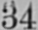34
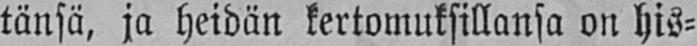tänsä, ja heidän kertomuksillansa on his-
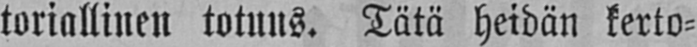toriallinen totuus. Tätä heidän kerto-
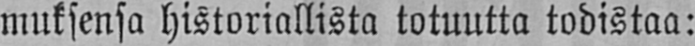muksensa historiallista totuutta todistaa:
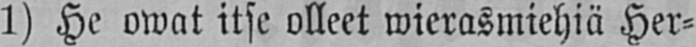1) He owat itse olleet wierasmiehiä Her-
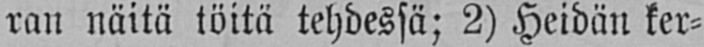ran näitä töitä tehdessä; 2) Heidän ker-
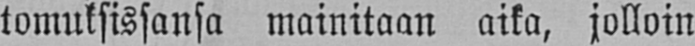tomuksissansa mainitaan aika, jolloin
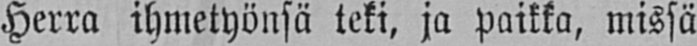Herra ihmetyönsä teki, ja paikka, missä
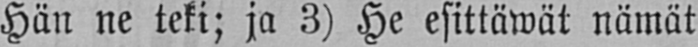Hän ne teki; ja 3) He esittäwät nämät
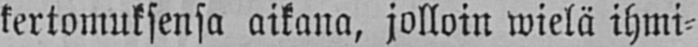kertomuksensa aikana, jolloin wielä ihmi-
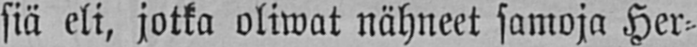siä eli, jotka oliwat nähneet samoja Her-
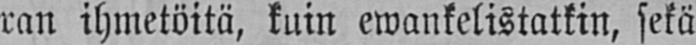ran ihmetöitä, kuin ewankelistatkin, sekä
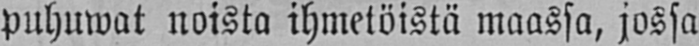puhuwat noista ihmetöistä maassa, jossa
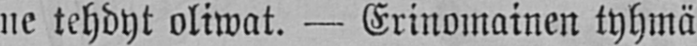ne tehdyt oliwat. — Erinomainen tyhmä
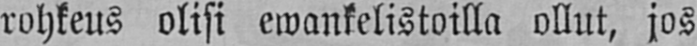rohkeus olisi ewankelistoilla ollut, jos
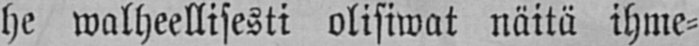he walheellisesti olisiwat näitä ihme-
